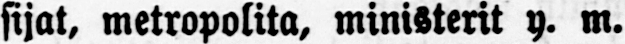sijat, metropolita, ministerit y. m.
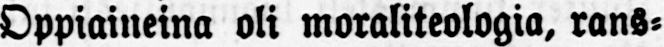Oppiaineina oli moraliteologia, rans-
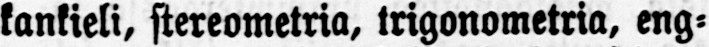kankieli, stereometria, trigonometria, eng-
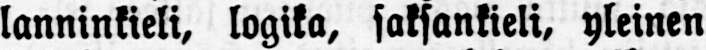lanninkieli, logika, saksankieli, yleinen
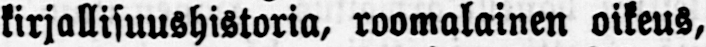kirjallisuushistoria, roomalainen oikeus,
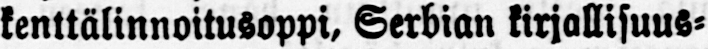kenttälinnoitusoppi, Serbian kirjallisuus-
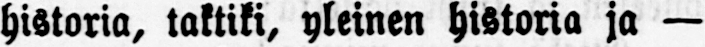historia, taktiki, yleinen historia ja —
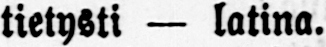tietysti — latina.
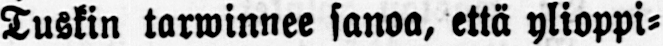Tuskin tarwinnee sanoa, että ylioppi-
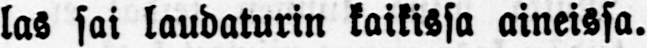las sai laudaturin kaikissa aineissa.
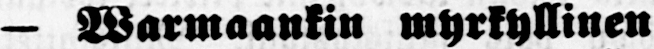— Warmaankin myrkyllinen
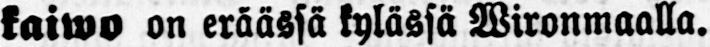kaiwo on eräässä kylässä Wironmaalla.
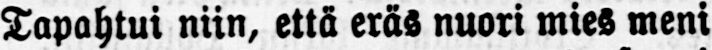Tapahtui niin, että eräs nuori mies meni
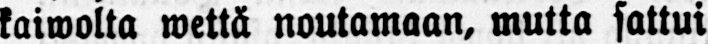kaiwolta wettä noutamaan, mutta sattui
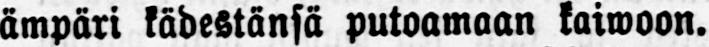ämpäri kädestänsä putoamaan kaiwoon.
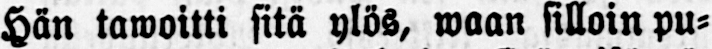Hän tawoitti sitä ylös, waan silloin pu-
